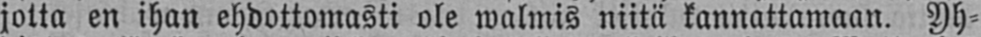jolta en ihan ehdottomasti ole walmis niitä kannattamaan. Yh-
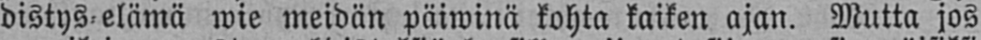distys elämä wie meidän päiwinä kohta kaiken ajan. Mutta jos
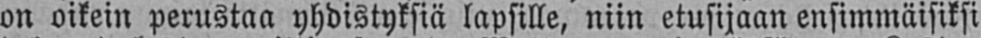on oikein perustaa yhdistyksiä lapsille, niin etusijaan ensimmäisiksi
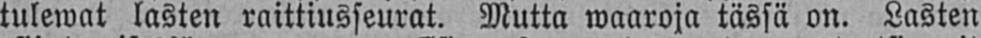tulewat lasten raittiusseurat. Mutta waaraja tässä on. Lasten
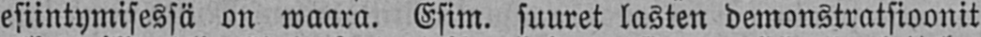esiintymisessä on waara. Esim. suuret lasten demonstratsioonit
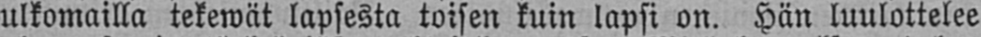ulkomailla tekewät lapsesta toisen kuin lapsi on. Hän luulottelee
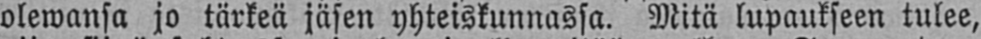olewansa jo tärkeä jäsen yhteiskunnassa. Mitä lupaukseen tulee,
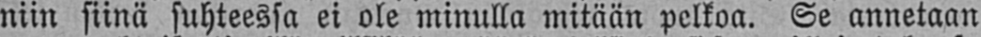niin siinä suhteessa ei ole minulla mitään pelkoa. Se annetaan
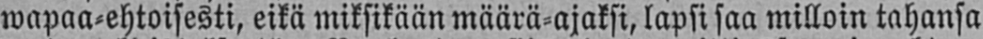wapaa-ehtoisesti, eikä miksikään määrä-ajaksi, lapsi saa milloin tahansa
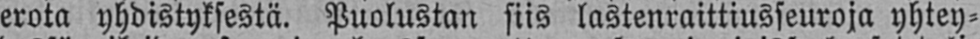erota yhdistyksestä. Puolustan siis lastenraittiusseuroja yhtey-
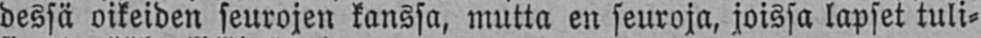dessä oikeiden seurojen kanssa, mutta en seuroja, joissa lapset tuli-
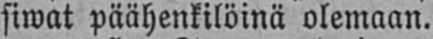siwat päähenkilöinä olemaan.
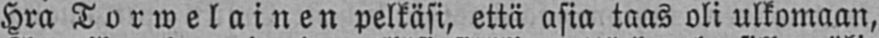Hra Torwelainen pelkäsi, että asia taas oli ulkomaan,
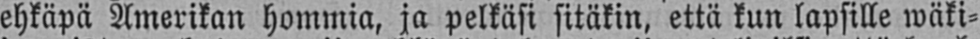ehkäpä Amerikan hommia, ja pelkäsi sitäkin, että kun lapsille wäki-
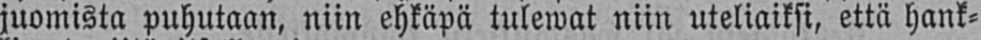juomista puhutaan, niin ehkäpä tulewat niin uteliaiksi, että hank-
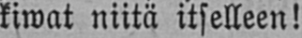kiwat niitä itselleen!
